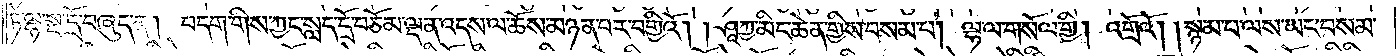ཏེ་ལྷ་སྔ་དྲོ་བཞུད་ན། བདག་གིས་ཀྱང་སླད་དྲོ་བཅོམ་ལྡན་འདས་ལ་ཆོས་མཉན་པར་བགྱིའོ། །ཤཱཀྱ་མིང་ཆེན་གྱིས་བསམ་པ། ལྷ་ལ་གསོལ་གྱི། འགྲོའོ། །སྙམ་པ་ལས་ཡང་བསམ་
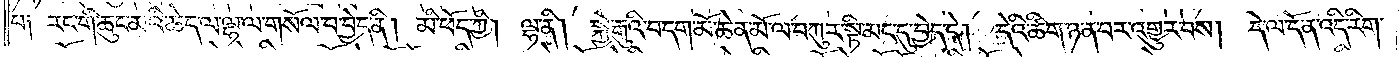པ༑ རང་གི་ཆུང་མའི་ཆེད་ལ་ལྷ་ལ་གསོལ་པ་བྱེད་ནི། མི་ཕོད་ཀྱི། ལྷ་ནི། སྐྱེ་རྒུའི་བདག་མོ་ཆེན་མོ་ལ་བཀུར་སྟི་མང་དུ་བྱེད་དེ། དེའི་ཚིག་ཉན་པར་གྱུར་བས། དེ་ལ་དོན་འདི་རིག་
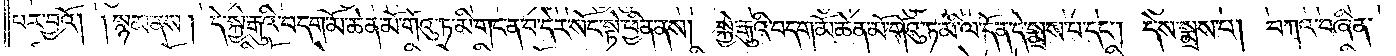པར་བྱའོ། །སྙམ་ནས། དེ་སྐྱེ་རྒུའི་བདག་མོ་ཆེན་མོ་གོའུ་ཏ་མི་གང་ན་བ་དེར་སོང་སྟེ་ཕྱིན་ནས། སྐྱེ་རྒུའི་བདག་མོ་ཆེན་པོ་གོའུ་ཏ་མི་ལ་དོན་དེ་སྨྲས་པ་དང༌། དེས་སྨྲས་པ། བཀའ་བཞིན་
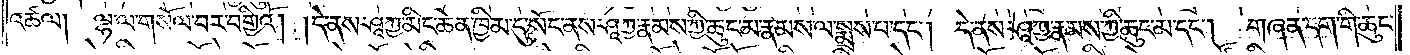འཚལ། ལྷ་ལ་གསོལ་བར་བགྱིའོ། །དེ་ནས་ཤཱཀྱ་མིང་ཆེན་ཁྱིམ་དུ་སོང་ནས་ཤཱཀྱ་རྣམས་ཀྱི་ཆུང་མ་རྣམས་ལ་སྨྲས་པ་དང༌། དེ་ནས་ཤཱཀྱ་རྣམས་ཀྱི་ཆུང་མ་དང༌། གཞན་དག་གི་ཆུང་
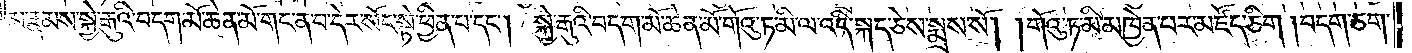མ་རྣམས་སྐྱེ་རྒུའི་བདག་མོ་ཆེན་མོ་གང་ན་བ་དེར་སོང་སྟེ་ཕྱིན་པ་དང༌། སྐྱེ་རྒུའི་བདག་མོ་ཆེན་མོ་གོའུ་ཏ་མི་ལ་འདི་སྐད་ཅེས་སྨྲས་སོ། །གོའུ་ཏ་མི་མཁྱེན་པར་མཛོད་ཅིག །བདག་ཅག་
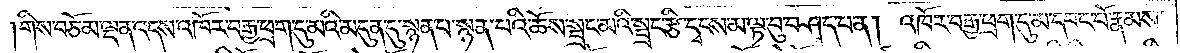གིས་བཅོམ་ལྡན་འདས་འཁོར་བརྒྱ་ཕྲག་དུ་མའི་མདུན་དུ་སྙན་པ་སྙན་པའི་ཆོས་སྦྲང་མའི་སྦྲང་རྩི་དྭངས་མ་ལྟ་བུ་བཤད་པ་ན། འཁོར་བརྒྱ་ཕྲག་དུ་མ་དབང་པོ་རྣམས་
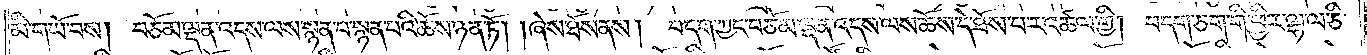མི་གཡོ་བས། བཅོམ་ལྡན་འདས་ལས་སྙན་པ་སྙན་པའི་ཆོས་ཉན་ཏོ། །ཞེས་ཐོས་ནས། བདག་ཀྱང་བཅོམ་ལྡན་འདས་ལས་ཆོས་དེ་ཐོས་པར་འཚལ་གྱི། བདག་ཅག་གི་ཕྱིར་ལྷ་ལ་ཅི་
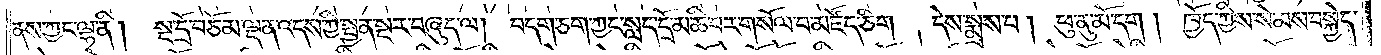ནས་ཀྱང་ལྷ་ནི། སྔ་དྲོ་བཅོམ་ལྡན་འདས་ཀྱི་སྤྱན་སྔར་བཞུད་ལ། བདག་ཅག་ཀྱང་སླད་དྲོ་མཆི་བར་གསོལ་བ་མཛོད་ཅིག། དེས་སྨྲས་པ། ཕུ་ནུ་མོ་དག། ཁྱོད་ཀྱིས་སེམས་བསྐྱེད་
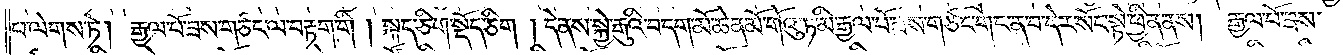པ་ལེགས་ཏེ། རྒྱལ་པོ་ཟས་གཙང་ལ་བརྟག་གི །སྐད་ཅིག་སྡོད་ཅིག །དེ་ནས་སྐྱེ་རྒུའི་བདག་མོ་ཆེན་མོ་གོའུ་ཏ་མི་རྒྱལ་པོ་ཟས་གཙང་གང་ན་བ་དེར་སོང་སྟེ་ཕྱིན་ནས། རྒྱལ་པོ་ཟས་
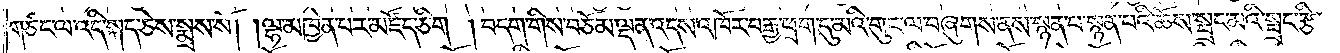གཙང་ལ་འདི་སྐད་ཅེས་སྨྲས་སོ། །ལྷ་མཁྱེན་པར་མཛོད་ཅིག །བདག་གིས་བཅོམ་ལྡན་འདས་འཁོར་བརྒྱ་ཕྲག་དུ་མའི་གུང་ལ་བཞུགས་ནས་སྙན་པ་སྙན་པའི་ཆོས་སྦྲང་མའི་སྦྲང་རྩི་
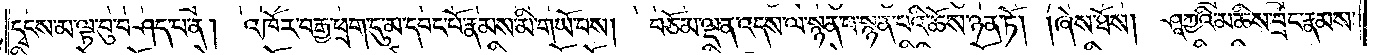དྭངས་མ་ལྟ་བུ་བཤད་པ་ན། འཁོར་བརྒྱ་ཕྲག་དུ་མ་དབང་པོ་རྣམས་མི་གཡོ་བས། བཅོམ་ལྡན་འདས་ལ་སྙན་པ་སྙན་པའི་ཆོས་ཉན་ཏོ། །ཞེས་ཐོས། ཤཱཀྱའི་མཆིས་བྲང་རྣམས་
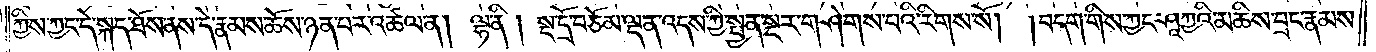ཀྱིས་ཀྱང་དེ་སྐད་ཐོས་ནས་དེ་རྣམས་ཆོས་ཉན་པར་འཚལ་ན། ལྷ་ནི། སྔ་དྲོ་བཅོམ་ལྡན་འདས་ཀྱི་སྤྱན་སྔར་གཤེགས་པའི་རིགས་སོ། །བདག་གིས་ཀྱང་ཤཱཀྱའི་མཆིས་བྲང་རྣམས་
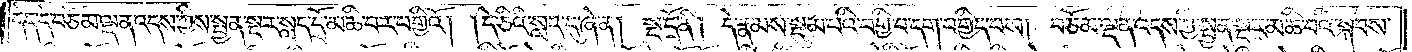དེད་དེ་བཅོམ་ལྡན་འདས་ཀྱིས་སྤྱན་སྔར་སླད་དྲོ་མཆི་བར་བགྱིའོ། །དེ་ཅིའི་སླད་དུ་ཞེ་ན། སྔ་དྲོ་ནི། དེ་རྣམས་སྡུམ་པའི་བགྱི་བ་དག་བགྱིད་པས། བཅོམ་ལྡན་འདས་ཀྱི་སྤྱན་སྔར་མཆི་བའི་སྐབས་
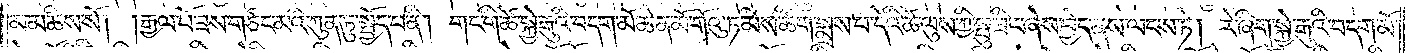མ་མཆིས་སོ། །རྒྱལ་པོ་ཟས་གཙང་མའི་ཀུན་ཏུ་སྤྱོད་པ་ནི། གང་གི་ཚེ་སྐྱེ་རྒུའི་བདག་མོ་ཆེན་མོ་གོའུ་ཏ་མིས་ཚིག་སྨྲས་པ་དེའི་ཚེ་ལུས་ཀྱི་སྤུ་ཟིང་ཞེས་བྱེད་ནས་ལངས་ཏེ། རེ་ཞིག་སྐྱེ་རྒུའི་བདག་མོ་
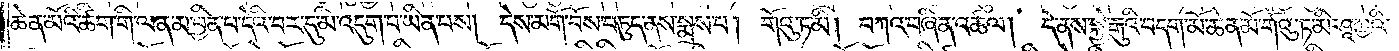ཆེན་མོའི་ཚིག་གི་ལན་མ་བྱིན་པ་དེའི་བར་དུ་མི་འདུག་པ་ཡིན་པས། དེས་མགོ་བོས་བཏུད་ནས་སྨྲས་པ། གོའུ་ཏ་མི། བཀའ་བཞིན་འཚལ། དེ་ནས་སྐྱེ་རྒུའི་བདག་མོ་ཆེན་མོ་གོའུ་ཏ་མི་ཤཱཀྱའི་
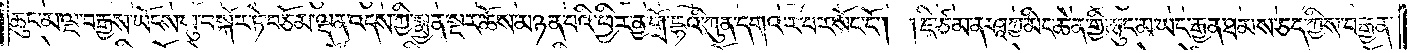ཆུང་མ་ལྔ་བརྒྱས་ཡོངས་སུ་བསྐོར་ཏེ་བཅོམ་ལྡན་འདས་ཀྱི་སྤྱན་སྔར་ཆོས་མཉན་པའི་ཕྱིར་ནྱ་གྲོ་དྷའི་ཀུན་དགའ་ར་བར་སོང་ངོ༌། །ཇི་ཙམ་ན་ཤཱཀྱ་མིང་ཆེན་གྱི་ཆུང་མ་ཡང་རྒྱན་ཐམས་ཅད་ཀྱིས་བརྒྱན་
